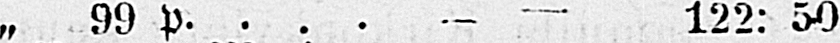„ 99 p. . . . — — 122: 50
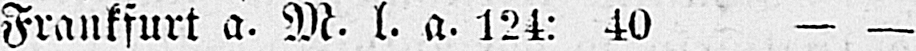Frankfurt a. M. l. a. 124: 40 — —
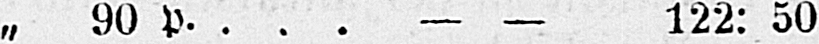„ 90 p. . . . — — 122: 50
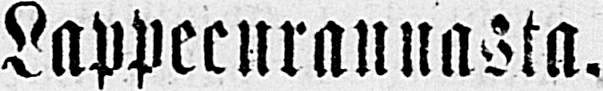Lappeenrannasta.
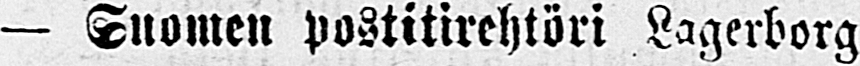— Suomen postitirehtöri Lagerborg
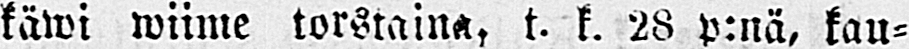käwi wiime torstaina, t. k. 28 p:nä, kau-
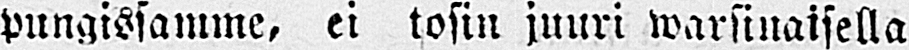pungissamme, ei tosin juuri warsinaisella
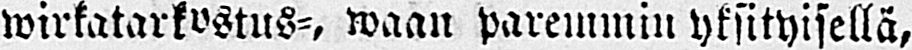wirkatarkvstus-, waan paremmin yksityisellä,
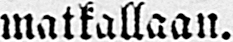matkallaan.
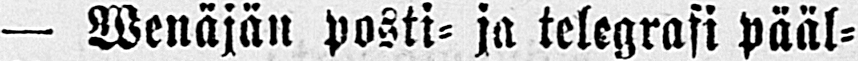— Wenäjän posti- ja telegrafi pääl-
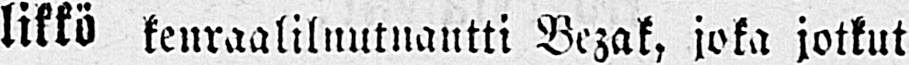likkö kenraaliluutnantti Bezak, joka jotkut
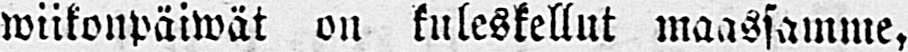wiikonpäiwät on kuleskellut maassamme,
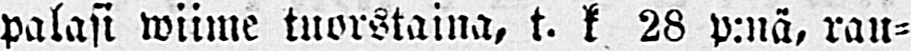palasi wiime tuorstaina, t. k 28 p:nä, rau-
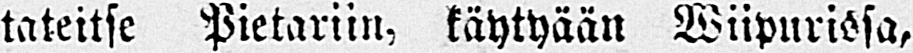tateitse Pietariin, käytyään Wiipurissa,
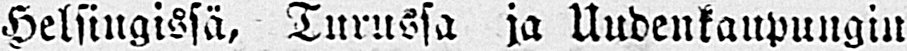Helsingissä, Turussa ja Uudenkaupungin
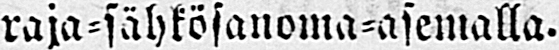raja-sähkösanoma-asemalla.
